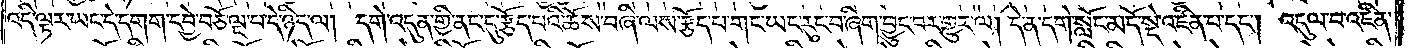འདི་ལྟར་ཡང་དེ་དགག་དབྱེ་བཅོ་ལྔ་པ་དེ་ཉིད་ལ། དགེ་འདུན་གྱི་ནང་དུ་རྩོད་པའི་ཆོས་བཞི་ལས་རྩོད་པ་གང་ཡང་རུང་བ་ཞིག་བྱུང་བར་གྱུར་ལ། དེ་ན་དགེ་སློང་མདོ་སྡེ་འཛིན་པ་དང༌། འདུལ་བ་འཛིན་
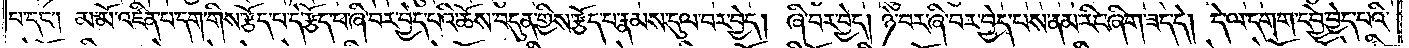པ་དང༌། མ་མོ་འཛིན་པ་དག་གིས་རྩོད་པ་དེ་རྩོད་པ་ཞི་བར་བྱེད་པའི་ཆོས་བདུན་གྱིས་རྩོད་པ་རྣམས་དུལ་བར་བྱེད། ཞི་བར་བྱེད། ཉེ་བར་ཞི་བར་བྱེད་པས་ནམ་རིང་ཞིག་ཟད་དེ། དེ་ལ་དགག་དབྱེ་བྱེད་པའི་
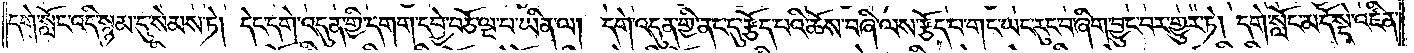དགེ་སློང་འདི་སྙམ་དུ་སེམས་ཏེ། དེང་དགེ་འདུན་གྱི་དགག་དབྱེ་བཅོ་ལྔ་པ་ཡིན་ལ། དགེ་འདུན་གྱི་ནང་དུ་རྩོད་པའི་ཆོས་བཞི་ལས་རྩོད་པ་གང་ཡང་རུང་བ་ཞིག་བྱུང་བར་གྱུར་ཏེ། དགེ་སློང་མདོ་སྡེ་འཛིན་
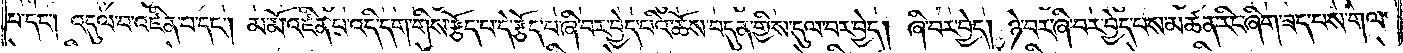པ་དང༌། འདུལ་བ་འཛིན་པ་དང༌། མ་མོ་འཛིན་པ་འདི་དག་གིས་རྩོད་པ་དེ་རྩོད་པ་ཞི་བར་བྱེད་པའི་ཆོས་བདུན་གྱིས་དུལ་བར་བྱེད། ཞི་བར་བྱེད། ཉེ་བར་ཞི་བར་བྱེད་པས་མཚན་རིང་ཞིག་ཟད་པས་གལ་
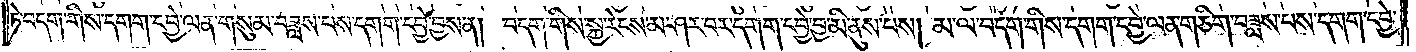ཏེ་བདག་གིས་དགག་དབྱེ་ལན་གསུམ་བཟླས་པས་དགག་དབྱེ་བྱས་ན། བདག་གིས་སྐྱ་རེངས་མ་ཤར་བར་དགག་དབྱེ་བྱ་མི་ནུས་པས། མ་ལ་བདག་གིས་དགག་དབྱེ་ལན་གཅིག་བཟླས་པས་དགག་དབྱེ་
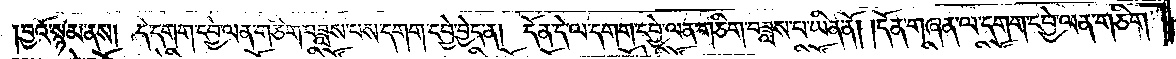བྱའོ་སྙམ་ནས། དེ་དགག་དབྱེ་ལན་གཅིག་བཟླས་པས་དགག་དབྱེ་བྱེད་ན། དོན་དེ་ལ་དགག་དབྱེ་ལན་གཅིག་བཟླས་པ་ཡིན་ནོ། །དོན་གཞན་ལ་དགག་དབྱེ་ལན་གཅིག་
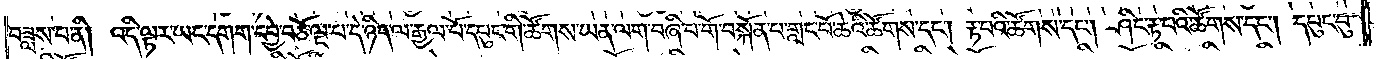བཟླས་པ་ནི། འདི་ལྟར་ཡང་དགག་དབྱེ་བཅོ་ལྔ་པ་དེ་ཉིད་ལ་རྒྱལ་པོ་དཔུང་གི་ཚོགས་ཡན་ལག་བཞི་པ་གོ་བསྐོན་པ་གླང་པོ་ཆེའི་ཚོགས་དང༌། རྟ་བའི་ཚོགས་དང༌། ཤིང་རྟ་བའི་ཚོགས་དང༌། དཔུང་བུ་
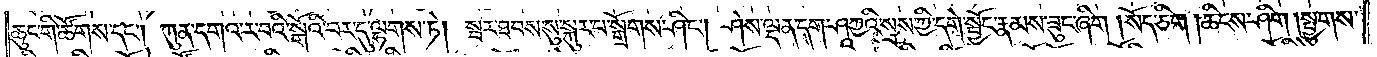ཆུང་གི་ཚོགས་དང༌། ཀུན་དགའ་ར་བའི་སྒོའི་བར་དུ་ལྷགས་ཏེ། སྦར་ཐབས་སུ་སྐུར་པ་སྒྲོགས་ཤིང༌། ཤེས་ལྡན་དག་ཤཱཀྱའི་སྲས་ཀྱི་དགེ་སྦྱོང་རྣམས་ཟུང་ཞིག །སོད་ཅིག །ཆིངས་ཤིག །སྤྱུགས་
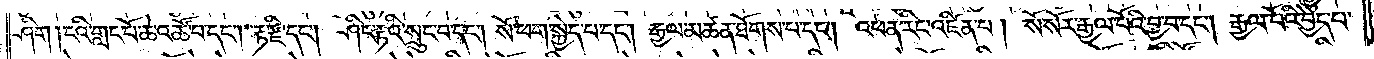ཤིག །ངའི་གླང་པོ་ཆེ་འཚོ་བ་དང༌། རྟ་རྫི་དང༌། ཤིང་རྟའི་སྲུང་བ་དང༌། སོ་ཕག་སྐྱེད་པ་དང༌། རྒྱལ་མཚན་ཐོགས་པ་དང༌། འཕན་རིང་འཛིན་པ། སོ་སོར་རྒྱལ་པོའི་བྱ་བ་དང༌། རྒྱལ་པོའི་བྱེད་པ་
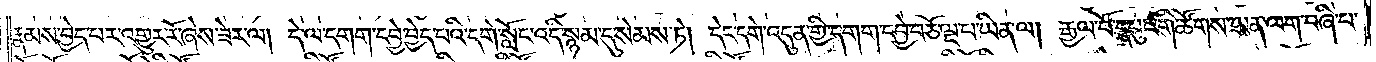རྣམས་བྱེད་པར་འགྱུར་རོ་ཞེས་ཟེར་ལ། དེ་ལ་དགག་དབྱེ་བྱེད་པའི་དགེ་སློང་འདི་སྙམ་དུ་སེམས་ཏེ། དེང་དགེ་འདུན་གྱི་དགག་དབྱེ་བཅོ་ལྔ་པ་ཡིན་ལ། རྒྱལ་པོ་དཔུང་གི་ཚོགས་ཡན་ལག་བཞི་པ་
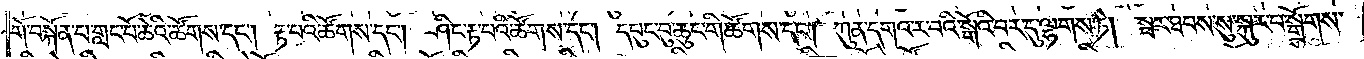གོ་བསྐོན་པ་གླང་པོ་ཆེའི་ཚོགས་དང༌། རྟ་པའི་ཚོགས་དང༌། ཤིང་རྟ་པའི་ཚོགས་དང༌། དཔུང་བུ་ཆུང་གི་ཚོགས་དང༌། ཀུན་དགའ་ར་བའི་སྒོའི་བར་དུ་ལྷགས་ཏེ། སྤར་ཐབས་སུ་སྐུར་པ་སྒྲོགས་
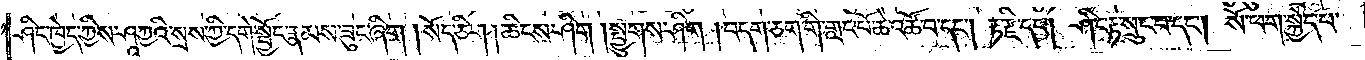ཤིང་ཁྱེད་ཀྱིས་ཤཱཀྱའི་སྲས་ཀྱི་དགེ་སྦྱོང་རྣམས་ཟུང་ཞིག །སོད་ཅིག །ཆིངས་ཤིག །སྤྱུགས་ཤིག །བདག་ཅག་གི་གླང་པོ་ཆེ་འཚོ་བ་དང༌། རྟ་རྫི་དང༌། ཤིང་རྟ་སྲུང་བ་དང༌། སོ་ཕག་སྐྱེད་པ་
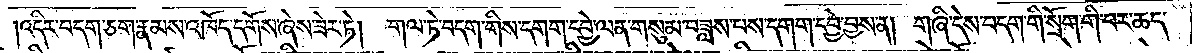།འདིར་བདག་ཅག་རྣམས་འཁོད་དགོས་ཞེས་ཟེར་ཏེ། གལ་ཏེ་བདག་གིས་དགག་དབྱེ་ལན་གསུམ་བཟླས་པས་དགག་དབྱེ་བྱས་ན། གཞི་དེས་བདག་གི་སྲོག་གི་བར་ཆད་
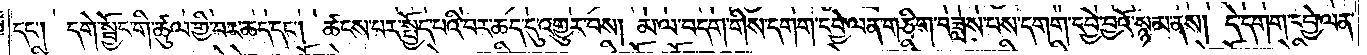དང༌། དགེ་སྦྱོང་གི་ཚུལ་གྱི་བར་ཆད་དང༌། ཚངས་པར་སྤྱོད་པའི་བར་ཆད་དུ་འགྱུར་བས། མ་ལ་བདག་གིས་དགག་དབྱེ་ལན་གཅིག་བཟླས་པས་དགག་དབྱེ་བྱའོ་སྙམ་ནས། དེ་དགག་དབྱེ་ལན་
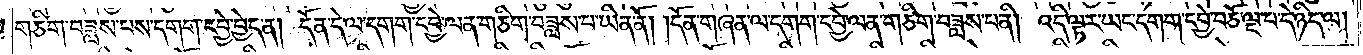གཅིག་བཟླས་པས་དགག་དབྱེ་བྱེད་ན། དོན་དེ་ལ་དགག་དབྱེ་ལན་གཅིག་བཟླས་པ་ཡིན་ནོ། །དོན་གཞན་ལ་དགག་དབྱེ་ལན་གཅིག་བཟླས་པ་ནི། འདི་ལྟར་ཡང་དགག་དབྱེ་བཅོ་ལྔ་པ་དེ་ཉིད་ལ།
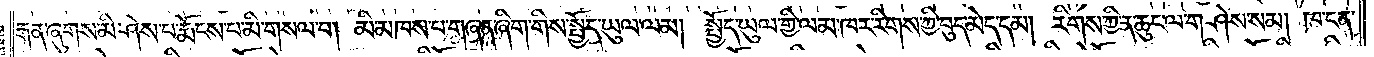རྒན་ཞུགས་མི་ཤེས་པ་རྨོངས་པ་མི་གསལ་བ། མི་མཁས་པ་གཞན་ཞིག་གིས་སྤྱོད་ཡུལ་ལམ། སྤྱོད་ཡུལ་གྱི་ལམ་ཁར་རིགས་ཀྱི་བུད་མེད་དམ། རིགས་ཀྱི་ན་ཆུང་ལ་གཤེས་སམ། ཁ་ངན་
